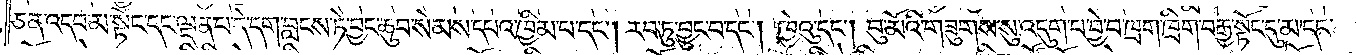ཅན་འདབ་མ་སྟོང་དང་ལྡན་པ་དེ་དག་བླངས་ཏེ་བྱང་ཆུབ་སེམས་དཔའ་ཁྱིམ་པ་དང༌། རབ་ཏུ་བྱུང་བ་དང༌། ཁྱེའུ་དང༌། བུ་མོའི་གཟུགས་སུ་འདུག་པ་བྱེ་བ་ཁྲག་ཁྲིག་བརྒྱ་སྟོང་དུ་མ་དང་
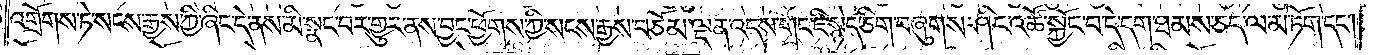འགྲོགས་ཏེ་སངས་རྒྱས་ཀྱི་ཞིང་དེ་ནས་མི་སྣང་བར་གྱུར་ནས་བྱང་ཕྱོགས་ཀྱི་སངས་རྒྱས་བཅོམ་ལྡན་འདས་གང་ཇི་སྙེད་ཅིག་བཞུགས་ཤིང་འཚོ་སྐྱོང་བ་དེ་དག་ཐམས་ཅད་ལ་མེ་ཏོག་དང༌།
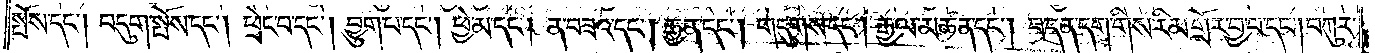སྤོས་དང༌། བདུག་སྤོས་དང༌། ཕྲེང་བ་དང༌། བྱུག་པ་དང༌། ཕྱེ་མ་དང༌། ན་བཟའ་དང༌། རྒྱན་དང༌། གདུགས་དང༌། རྒྱལ་མཚན་དང༌། བ་དན་དག་གིས་རིམ་གྲོར་བྱ་བ་དང༌། བཀུར་
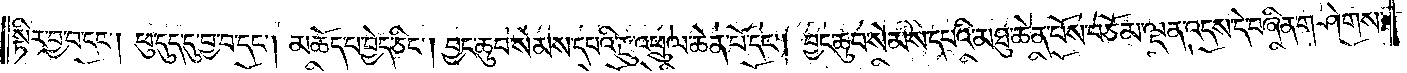སྟིར་བྱ་བ་དང༌། ཕུ་དུད་དུ་བྱ་བ་དང༌། མཆོད་པ་བྱེད་ཅིང༌། བྱང་ཆུབ་སེམས་དཔའི་རྫུ་འཕྲུལ་ཆེན་པོ་དང༌། བྱང་ཆུབ་སེམས་དཔའི་མཐུ་ཆེན་པོས་བཅོམ་ལྡན་འདས་དེ་བཞིན་གཤེགས་
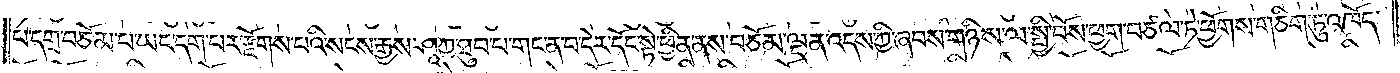པ་དགྲ་བཅོམ་པ་ཡང་དག་པར་རྫོགས་པའི་སངས་རྒྱས་ཤཱཀྱ་ཐུབ་པ་གང་ན་བ་དེར་དོང་སྟེ་ཕྱིན་ནས་བཅོམ་ལྡན་འདས་ཀྱི་ཞབས་གཉིས་ལ་སྤྱི་བོས་ཕྱག་བཙལ་ཏེ་ཕྱོགས་གཅིག་ཏུ་འཁོད་
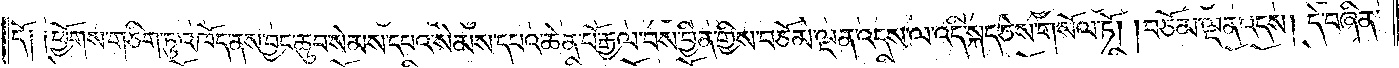དོ༑ ༑ཕྱོགས་གཅིག་ཏུ་འཁོད་ནས་བྱང་ཆུབ་སེམས་དཔའ་སེམས་དཔའ་ཆེན་པོ་རྒྱལ་བས་བྱིན་གྱིས་བཅོམ་ལྡན་འདས་ལ་འདི་སྐད་ཅེས་གསོལ་ཏོ། །བཅོམ་ལྡན་འདས། དེ་བཞིན་
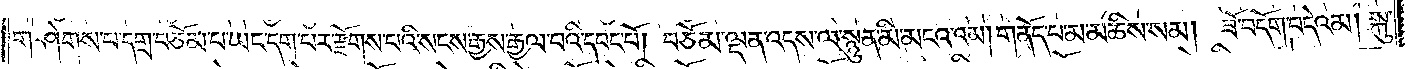གཤེགས་པ་དགྲ་བཅོམ་པ་ཡང་དག་པར་རྫོགས་པའི་སངས་རྒྱས་རྒྱལ་བའི་དབང་པོ། བཅོམ་ལྡན་འདས་ལ་སྙུན་མི་མངའ་འམ། གནོད་པ་མ་མཆིས་སམ། ཟོ་བདོག་བདེའམ། སྐུ་
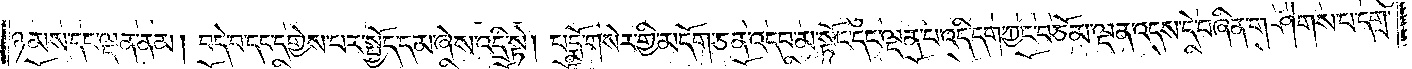ཉམས་དང་ལྡན་ནམ། བདེ་བ་དང་དགྱེས་པར་སྤྱོད་དམ་ཞེས་འདྲི་སྟེ། པདྨོ་གསེར་གྱི་མདོག་ཅན་འདབ་མ་སྟོང་དང་ལྡན་པ་འདི་དག་ཀྱང་བཅོམ་ལྡན་འདས་དེ་བཞིན་གཤེགས་པ་དགྲ་
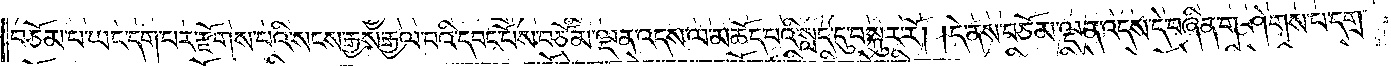བཅོམ་པ་ཡང་དག་པར་རྫོགས་པའི་སངས་རྒྱས་རྒྱལ་བའི་དབང་པོས་བཅོམ་ལྡན་འདས་ལ་མཆོད་པའི་སླད་དུ་བསྐུར་རོ། །དེ་ནས་བཅོམ་ལྡན་འདས་དེ་བཞིན་གཤེགས་པ་དགྲ་
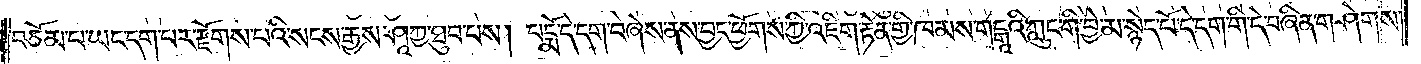བཅོམ་པ་ཡང་དག་པར་རྫོགས་པའི་སངས་རྒྱས་ཤཱཀྱ་ཐུབ་པས། པདྨོ་དེ་དག་བཞེས་ནས་བྱང་ཕྱོགས་ཀྱི་འཇིག་རྟེན་གྱི་ཁམས་གངྒའི་ཀླུང་གི་བྱེ་མ་སྙེད་པོ་དེ་དག་གི་དེ་བཞིན་གཤེགས་
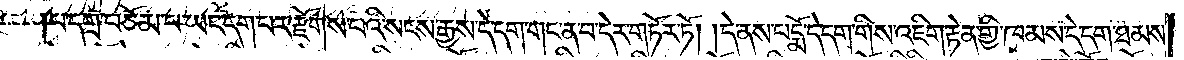པ་དགྲ་བཅོམ་པ་ཡང་དག་པར་རྫོགས་པའི་སངས་རྒྱས་དེ་དག་གང་ན་བ་དེར་གཏོར་ཏོ། །དེ་ནས་པདྨོ་དེ་དག་གིས་འཇིག་རྟེན་གྱི་ཁམས་དེ་དག་ཐམས་
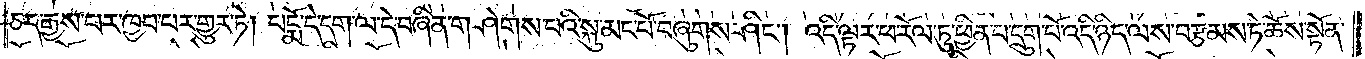ཅད་རྒྱས་པར་ཁྱབ་པར་གྱུར་ཏེ། པདྨོ་དེ་དག་ལ་དེ་བཞིན་གཤེགས་པའི་སྐུ་མང་པོ་བཞུགས་ཤིང༌། འདི་ལྟར་ཕ་རོལ་ཏུ་ཕྱིན་པ་དྲུག་པོ་འདི་ཉིད་ལས་བརྩམས་ཏེ་ཆོས་སྟོན་
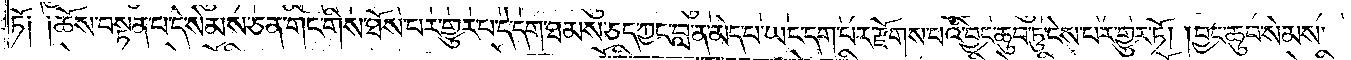ཏོ༑ ༑ཆོས་བསྟན་པ་དེ་སེམས་ཅན་གང་གིས་ཐོས་པར་གྱུར་པ་དེ་དག་ཐམས་ཅད་ཀྱང་བླ་ན་མེད་པ་ཡང་དག་པར་རྫོགས་པའི་བྱང་ཆུབ་ཏུ་ངེས་པར་གྱུར་ཏོ། །བྱང་ཆུབ་སེམས་
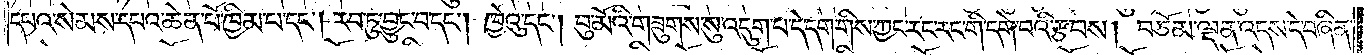དཔའ་སེམས་དཔའ་ཆེན་པོ་ཁྱིམ་པ་དང༌། རབ་ཏུ་བྱུང་བ་དང༌། ཁྱེའུ་དང༌། བུ་མོའི་གཟུགས་སུ་འདུག་པ་དེ་དག་གིས་ཀྱང་རང་རང་གི་དགེ་བའི་རྩ་བས། བཅོམ་ལྡན་འདས་དེ་བཞིན་
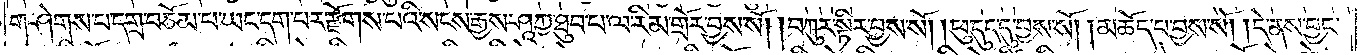གཤེགས་པ་དགྲ་བཅོམ་པ་ཡང་དག་པར་རྫོགས་པའི་སངས་རྒྱས་ཤཱཀྱ་ཐུབ་པ་ལ་རིམ་གྲོར་བྱས་སོ། །བཀུར་སྟིར་བྱས་སོ། །ཕུ་དུད་དུ་བྱས་སོ། །མཆོད་པ་བྱས་སོ། །དེ་ནས་བྱང་
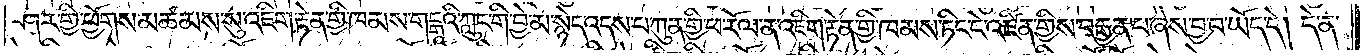ཤར་གྱི་ཕྱོགས་མཚམས་སུ་འཇིག་རྟེན་གྱི་ཁམས་གངྒཱའི་ཀླུང་གི་བྱེ་མ་སྙེད་འདས་པ་ཀུན་གྱི་ཕ་རོལ་ན་འཇིག་རྟེན་གྱི་ཁམས་ཏིང་ངེ་འཛིན་གྱིས་བརྒྱན་པ་ཞེས་བྱ་བ་ཡོད་དེ། དེ་ན་
